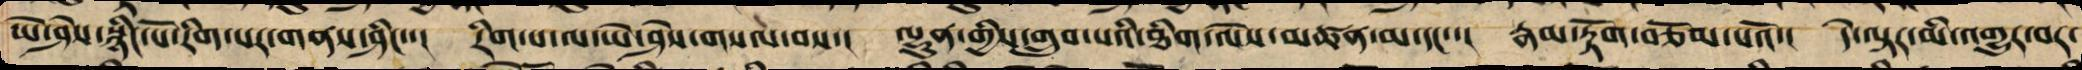ཡེ་ཤེས་སྙིང་པོ་རིག་པར་གནས་ཤིང་་། རིག་པ་ལ་ཡེ་ཤེས་གསལ་བས་། ལྷུན་གྱིས་གྲུབ་པའི་ཐིག་ལེས་མཚན་མ་དང་་། རྣམ་རྟོག་བཅོམ་པའོ་། དེ་ལྟར་མི་འགྱུར་བར་
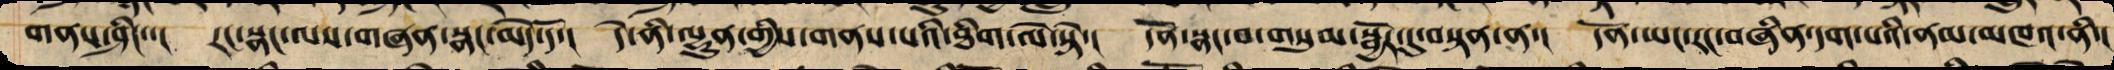གནས་ཤིང་་། རང་སྣང་ལས་གཞན་སྣང་མེད་དོ་། དེ་ནི་ལྷུན་གྱིས་གནས་པའི་ཐིག་ལེ་སྟེ་། དོན་སྣང་བ་གསུམ་སྦྱོར་དུ་བསྟན་ན་། དོན་ཡང་རང་བཞིན་དག་པའི་ནམ་མཁའ་ནི་།
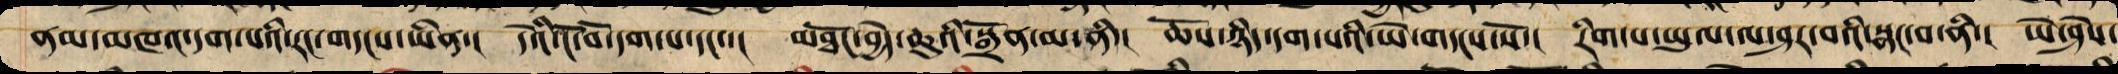ནམ་མཁའ་དག་པའི་རང་གདངས་ཡིན་། དེའི་ངོ་བོ་དག་པ་དང་་། མཐོང་བྱེད་ཆུའི་སྒྲོན་མ་ནི་། ཆོས་ཉིད་དག་པའི་ཡེ་གདངས་སོ་། རིག་པ་ཡུལ་ལ་ཤར་བའི་སྣང་བ་ནི་། ཡེ་ཤེས་
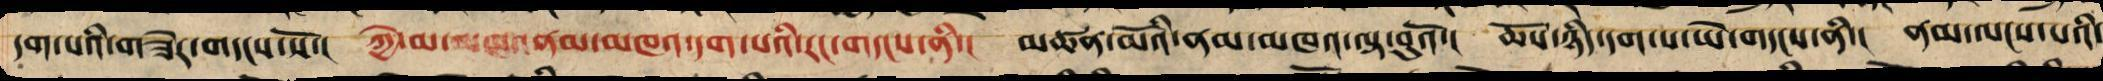དག་པའི་གཟེར་གདངས་སོ་། ཀྱེ་མ་མཁའ་ནམ་མཁའ་དག་པའི་རང་གདངས་ནི་། མཚན་མོའི་ནམ་མཁའ་ལྟ་བུའོ་། ཆོས་ཉིད་དག་པ་ཡེ་གདངས་ནི་། ནམ་ལངས་པའི་
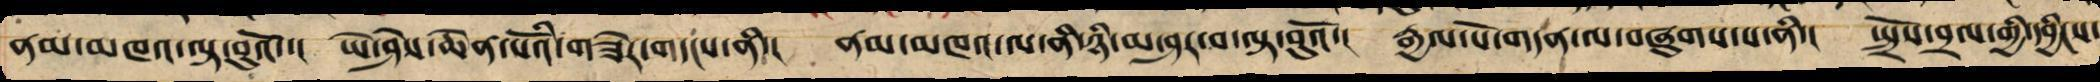ནམ་མཁའ་ལྟ་བུའོ་། ཡེ་ཤེས་ཆེན་པོའི་གཟེར་གདངས་ནི་། ནམ་མཁའ་ལ་ནི་ཉི་མ་ཤར་བ་ལྟ་བུའོ་། རྒྱལ་པོ་གདན་ལ་བཞུགས་པ་ནི་། སྤྲོས་བྲལ་གྱིས་དབྱིངས་
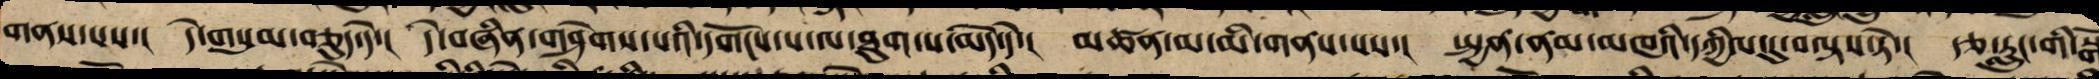གནས་པས་། དེ་གསུམ་བཅུད་དེ་། དེ་བཞིན་གཤེགས་པའི་དགོངས་པ་ལ་ཐུག་པ་མེད་དེ་། མཚན་མ་མི་གནས་པས་། སྤྱན་ནམ་མཁའི་དཀྱིལ་དུ་བལྟས་ཏེ་། རྩ་རླུང་གི་སྒོ
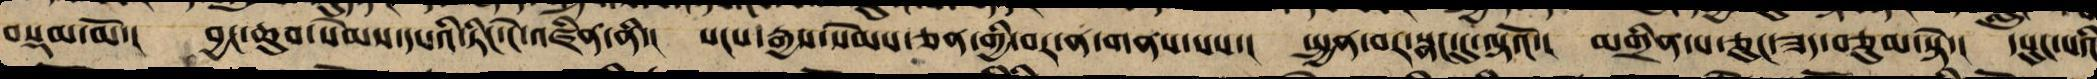བསྡམ་མོ་། བྱང་ཆུབ་སེམས་དཔའི་ཏིང་ངེ་འཛིན་ནི་། སངས་རྒྱས་སེམས་ཅན་གྱི་བར་ན་གནས་པས་། སྤྱན་བར་སྣང་དུ་ལྟའོ་། མགྲིན་པ་ཅུང་ཟད་བཅུམ་སྟེ་། དཔུང་པའི
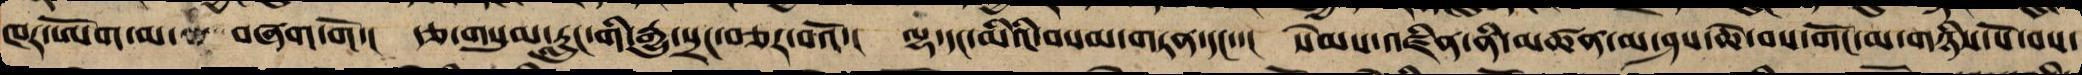ཁར་ཨོག་མ་ བཞག་གོ་། རྩ་གསུམ་རླུང་གི་རྒྱུ་སྲང་བཅར་བའོ་། ལྷ་དང་མིའི་བསམ་གཏན་དང་་། སེམས་འཛིན་ནི་མཚན་མ་ཤས་ཆེ་བས་གོང་མ་གཉིས་པོ་བས་
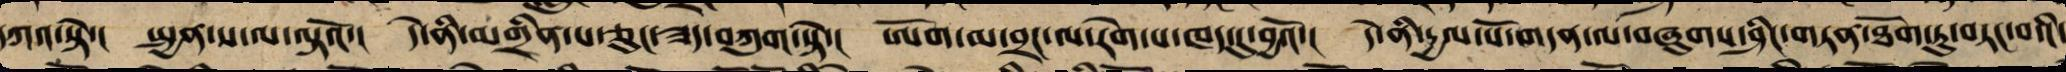དཀའ་སྟེ་། སྤྱན་ས་ལ་ལྟའོ་། དེ་ནི་མགྲིན་པ་ཅུང་ཟད་བཀུག་སྟེ་། ཨོག་མ་བྲང་ལ་རེག་ལ་ཁད་དུ་བྱའོ་། དེ་ནི་དྱལ་པོ་གདན་ལ་བཞུགས་ཤིང་གཏན་ཐོག་ཏུ་བཏང་བའི་
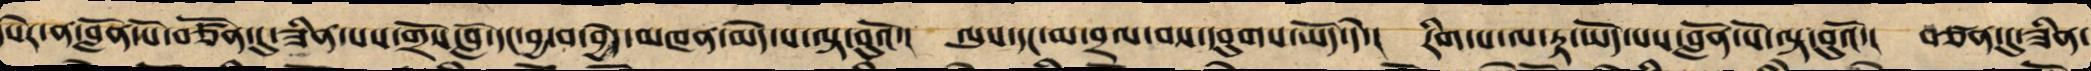དཔེར་ན་བློན་པོ་བཙོན་དུ་ཟིན་པས་གྲོས་བློ་དང་བྱ་བ་བྱེད་མཁན་མེད་པ་ལྟ་བུའོ་། ལུས་དང་མ་བྲལ་བས་དབུགས་ཡོད་དེ་། རིག་པ་ལ་རྟ་ཡོད་པས་བློན་པོ་ལྟ་བུའོ་། བཙན་དུ་ཟིན་
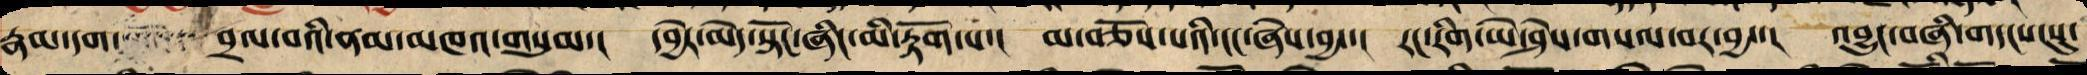རྣམ་དག་ བྲལ་བའི་ནམ་མཁའ་གསུམ་། དབྱེར་མེད་སྟོང་ཞིང་མི་རྟོག་པ་། མ་བཅོས་པའི་ངང་ཞེས་བྱ་་། རང་རིག་ཡེ་ཤེས་གསལ་བར་བྱ་་། འབྱུང་བཞི་གདངས་སུ་
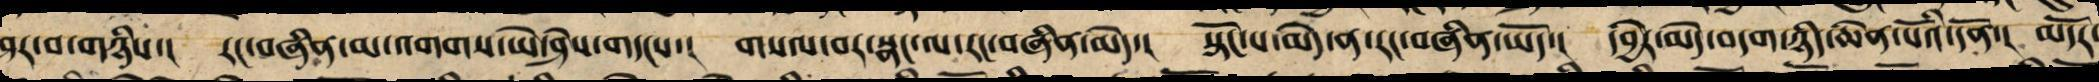ཤར་བ་གཉིས་། རང་བཞིན་མ་འགགས་ཡེ་ཤེས་གདངས་། གསལ་བར་སྣང་ལ་རང་བཞིན་མེད་། སྟོང་པ་མེད་ན་རང་བཞིན་ཡོད་། དབྱེར་མེད་བདག་ཉིད་ཆེན་པོའི་དོན་། མདོར་
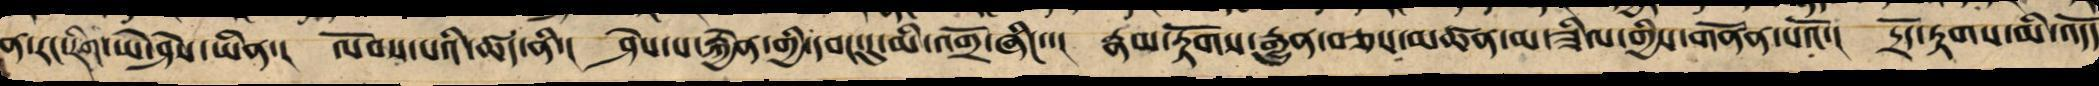ན་རང་རིག་ཡེ་ཤེས་ཡིན་། ལོབས་པའི་ཚད་ནི་། ཤེས་པ་རྐྱེན་གྱི་དབང་དུ་མི་འགྲོ་ཞིང་་། རྣམ་རྟོགས་རྒྱུན་བཅས་མཚན་མ་ཟིལ་གྱིས་གནོན་པའོ་། དྲོད་རྟགས་མི་འདོད
